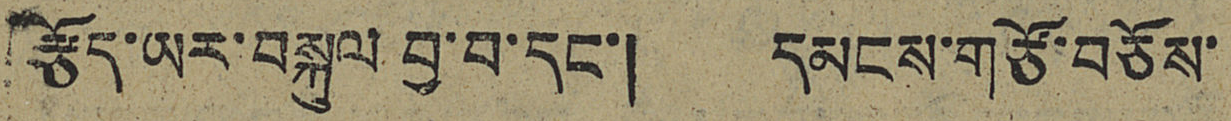རྩོད་ཡར་བསྐུལ བྱ་བ་དང་། དམངས་གཙོ་བཅོས་
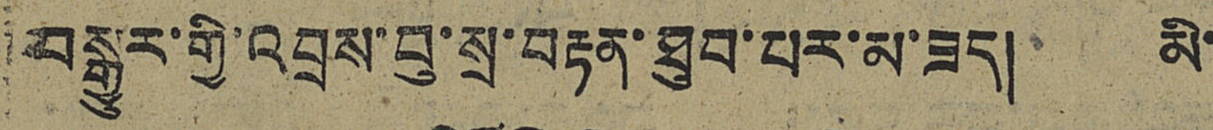བསྒྱུར་གྱི་འབྲས་བུ་སྲ་བརྟན་ཐུབ་པར་མ་ཟད། མི་
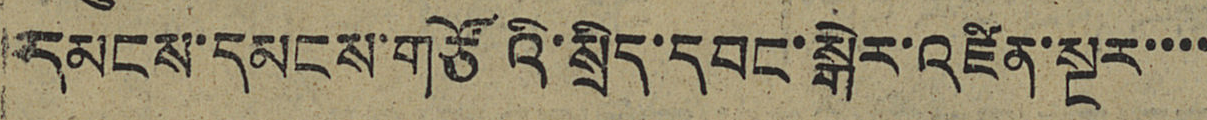དམངས་དམངས་གཙོའི་སྲིད་དབང་སྒེར་འཛིན་སྔར་་་་
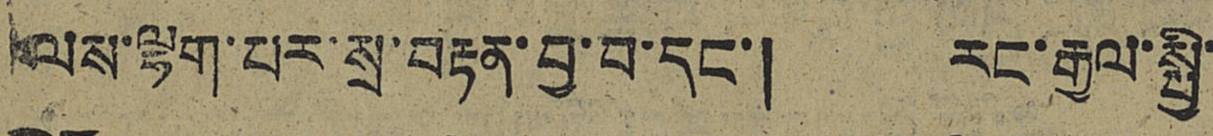ལས་ལྷག་པར་སྲ་བརྟན་བྱ་བ་དང་། རང་རྒྱལ་སྤྱི་
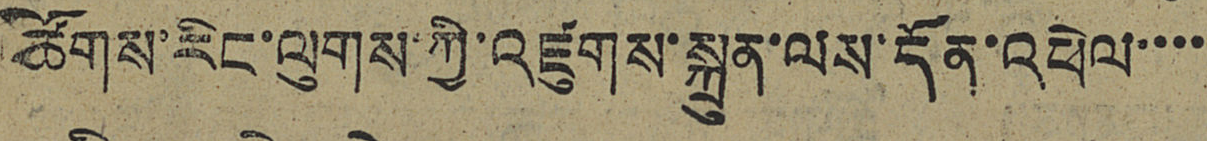ཚོགས་རིང་ལུགས་ཀྱི་འཛུགས་སྐྲུན་ལས་དོན་འཕེལ་་་་
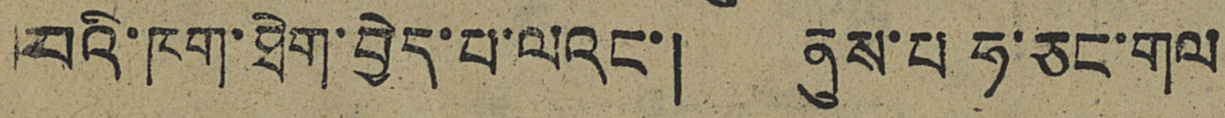པའི་ཁག་ཐེག་བྱེད་པ་ལའང་། ནུས་པ ཧ་ཅང་གལ
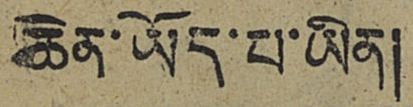ཆེན་ཡོད་པ་ཡིན།
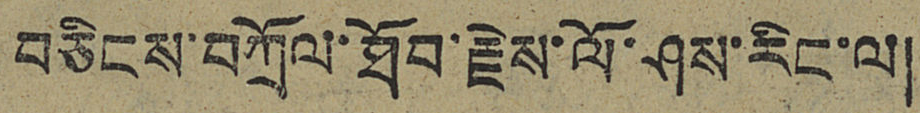བཅིངས་བཀྲོལ་ཐོབ་རྗེས་ལོ་ཤས་རིང་ལ།
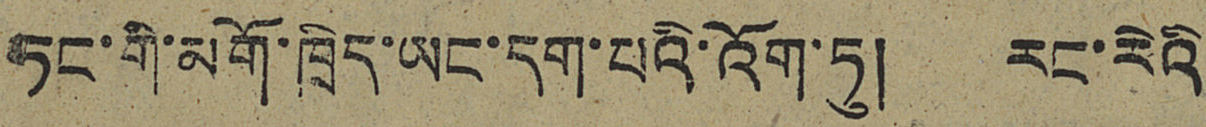ཏང་གི་མགོ་ཁྲིད་ཡང་དག་པའི་འོག་ཏུ། རང་རེའི
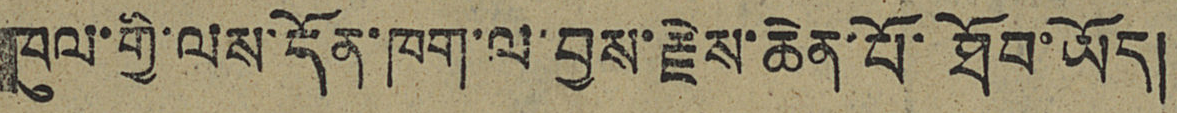ཁུལ་གྱི་ལས་དོན་ཁག་ལ་བྱས་རྗེས་ཆེན་པོ་ཐོབ་ཡོད།
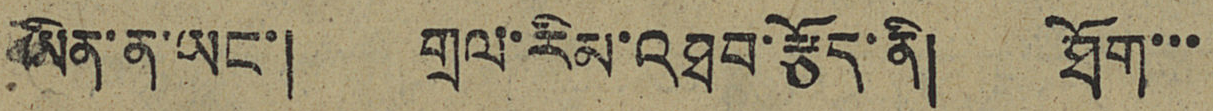ཡིན་ན་ཡང་། གྲལ་རིམ་འཐབ་རྩོད་ནི། ཐོག་་་
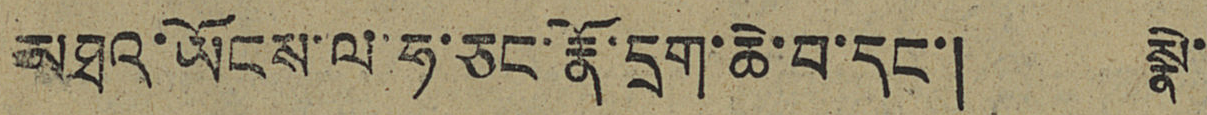མཐའ་ཡོངས་ལ་ཧ་ཅང་རྣོ་དྲག་ཆེ་བ་དང་། སྣེ་
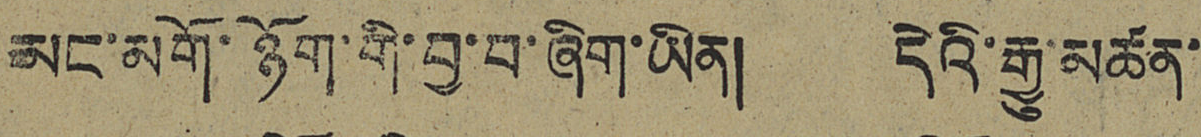མང་མགོ་ཉོག་གི་བྱ་བ་ཞིག་ཡིན། དེའི་རྒྱུ་མཚན་
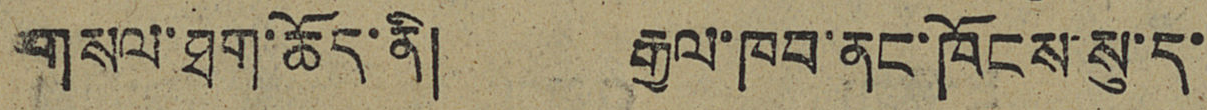གསལ་ཐག་ཆོད་ནི། རྒྱལ་ཁབ་ནང་ཁོངས་སུ་ད་
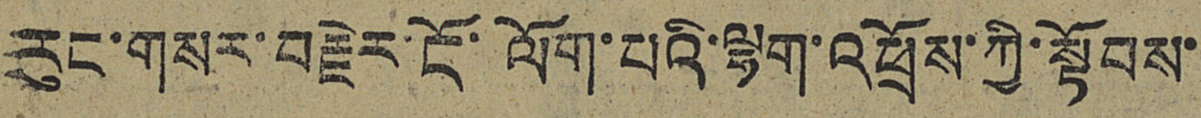རུང་གསར་བརྗེར་ངོ་ལོག་པའི་ལྷག་འཕྲོས་ཀྱི་སྟོབས་
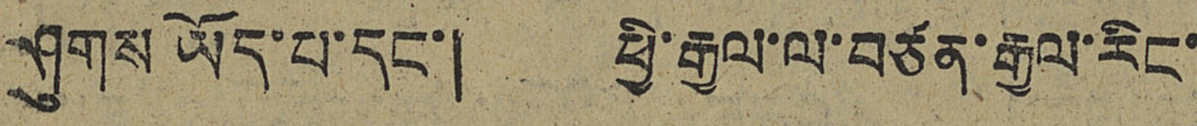ཤུགས ཡོད་པ་དང་། ཕྱི་རྒྱལ་ལ་བཙན་རྒྱལ་རིང་
